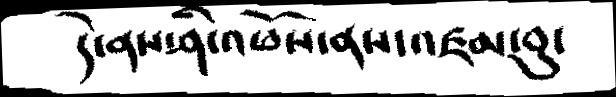དེ་ནས་ཤི་འཕོས་ནས་འཇམ་བུ་
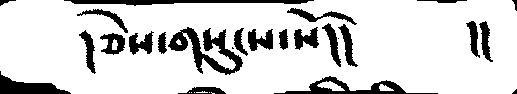།ཅེས་གསུངས་སོ།།     །།
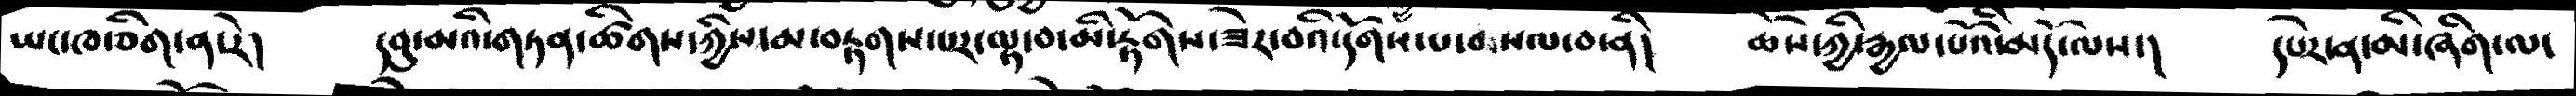ཡང་ཁ་ཅིག་ན་རེ།  དབུ་མའི་གཏན་ཚིགས་ཀྱིས་མ་བརྟག་པར་ལྟ་བ་མི་རྟོགས་ཟེར་བའི་དོགས་པ་བསལ་བ་ནི།  ཆོས་ཀྱི་རྒྱལ་པོའི་མདོ་ལས་།  དཔེར་ན་མི་ཞིག་ལ་
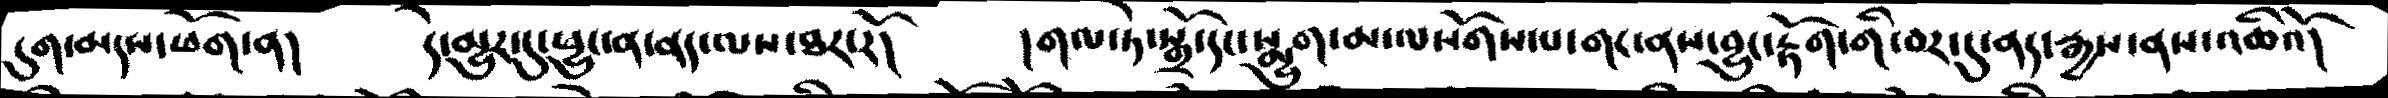དུག་མདས་ཕོག་ན།  དེ་མྱུར་དུ་ཕྱུ་ན་ནད་ལས་ཐར་རོ།  །གལ་ཏེ་སྒྲོ་དང་སྨྱུག་མ་ལསོགས་གང་ནས་བྱུང་རྟོག་གི་བར་དུ་ནད་རྒྱས་ནས་འཆིའོ།
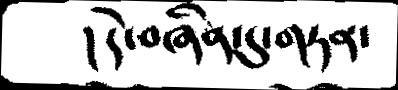།དེ་བཞིན་དུ་གཏན་
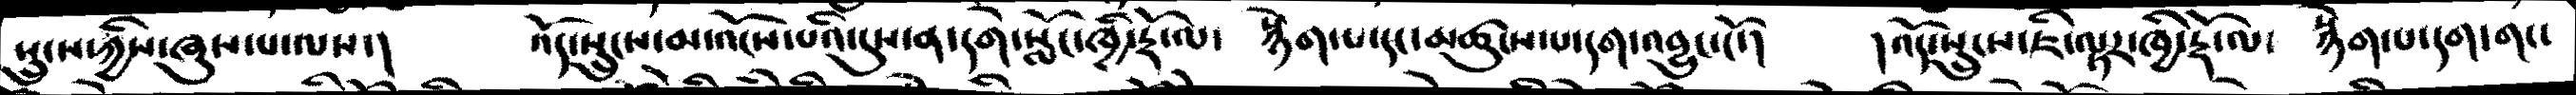སྲུངས་ཀྱིས་ཞུས་པ་ལས་།  འོད་སྲུངས་མ་འོངས་པའི་དུས་ན་དགེ་སློང་ཁྱི་རྡོ་ལ་  སྙེག་པ་དང་མཚུངས་པ་དག་འབྱུང་ངོ་།   །འོད་སྲུངས་ཇི་ལྟར་ཁྱི་རྡོ་ལ་  སྙེག་པ་དག་གང་
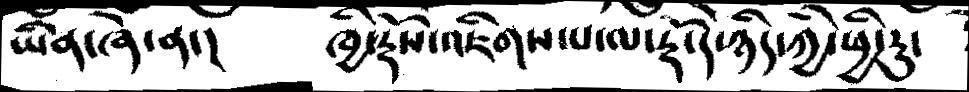ཡིན་ཞེ་ན་།   ཁྱི་རྡོས་འཇིགས་པ་ལ་རྡོ་དེ་ཉིད་ཀྱི་ཕྱི་རུ་
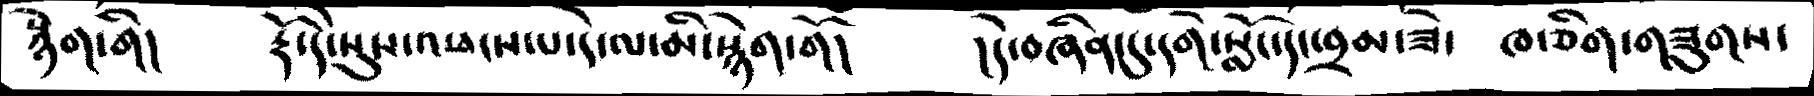སྙེག་གི།  རྡོ་དེ་སུས་འཕངས་པ་དེ་ལ་མི་སྙེག་གོ།  །དེ་བཞིན་དུ་དགེ་སློང་དང་བྲམ་ཟེ་  ཁ་ཅིག་གཟུགས་
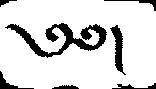༄༅།
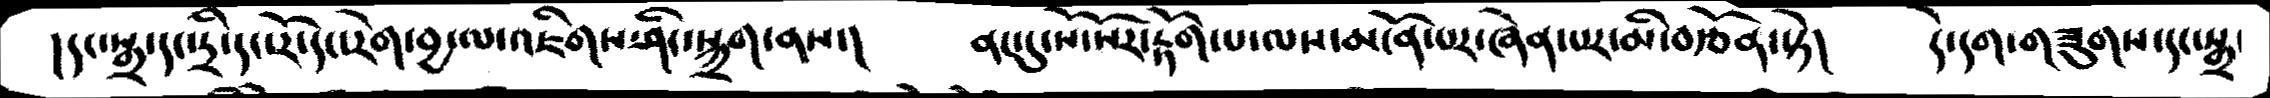།དང་སྒྲ་དང་དྲི་དང་རོ་དང་རེག་བྱ་ལ་འཇིགས་ཤིང་སྐྲག་ནས་།  ནང་དུ་སོ་སོར་རྟོག་པ་ལས་མངོན་པར་ཞེས་པར་མི་བརྩོན་སྟེ།  དེ་དག་གཟུགས་དང་སྒྲ་
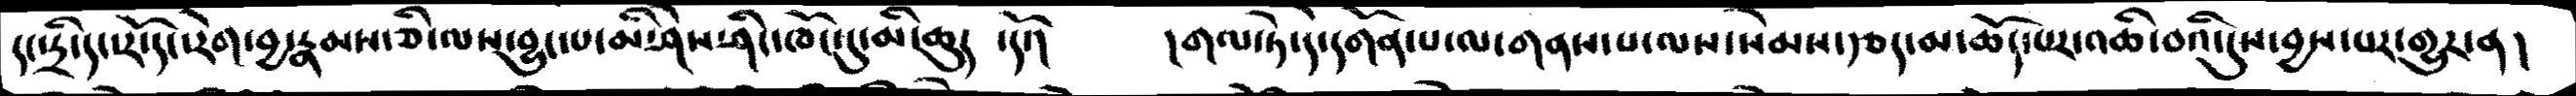དང་དྲི་དང་རོ་དང་རེག་བྱ་རྣམས་ཅི་ལས་བྱུང་པ་མི་ཤེས་ཤིང་ཁོང་དུ་ཆུད་ དོ་།  །གལ་ཏེ་དེ་དགོས་པ་ལ་གནས་པ་ལས་སེམས་རྩད་མ་ཆོད་པར་འཆི་བའི་དུས་བྱས་པར་གྱུར་ན།
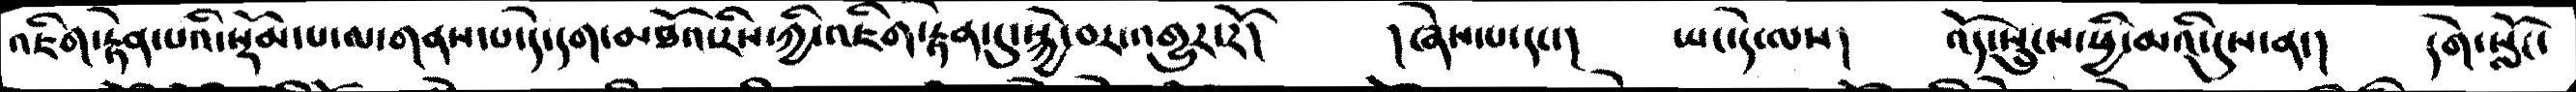འཇིག་རྟེན་པའི་སྡོམ་པ་ལ་གནས་པ་དེ་དག་མཐོའ་རིས་ཀྱི་འཇིག་རྟེན་དུ་སྐྱེ་བར་འགྱུར་རོ།  །ཞེས་པ་དང་།  ཡང་དེ་ལས།  འོད་སྲུངས་ཕྱི་མའི་དུས་ན་།  དགེ་སློང་
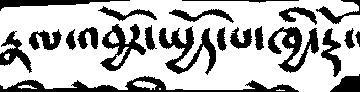རྣམ་འབྱོར་སྤྱོད་པ་ཁྱི་རྡོ་
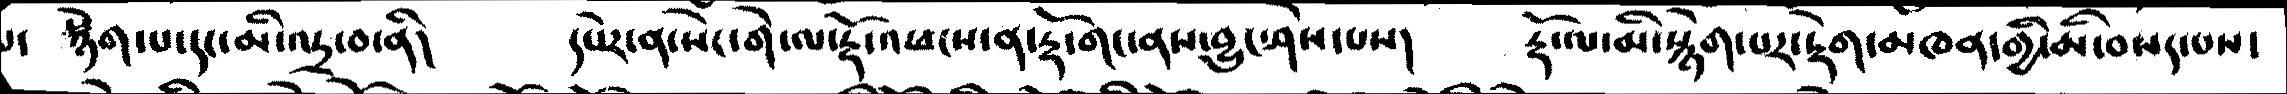སྙེག་པ་དང་མི་འདྲ་བ་ནི།  དཔེར་ན་སེང་གེ་ལ་རྡོ་འཕངས་ན་རྡོ་གང་ནས་བྱུང་ཤེས་པས།  རྡོ་ལ་མི་སྙེག་པར་རྟོག་མཁན་གྱི་མི་བསར་པས་
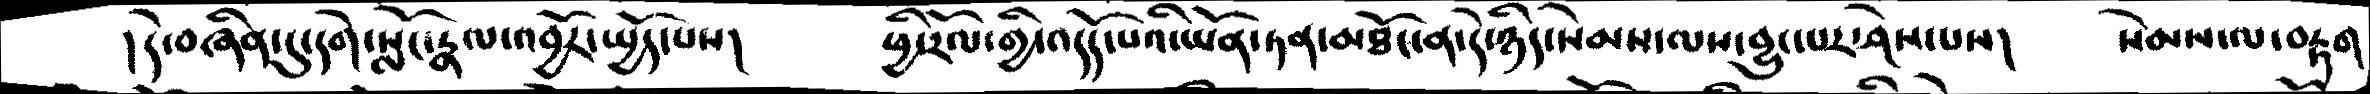།དེ་བཞིན་དུ་དགེ་སློང་རྣམ་འབྱོར་སྤྱོད་པས།   ཕྱི་རོལ་གྱི་འདོད་པའི་ཡོན་ཏན་མཐོང་ན་དེ་ཉིད་སེམས་ལས་བྱུང་པར་ཤེས་པས།  སེམས་ལ་བརྟག
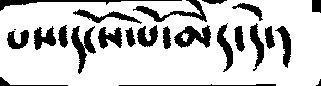པས་དངོས་པོ་མེད་དེ་།
